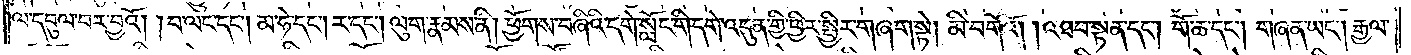ལ་དབུལ་བར་བྱའོ། །བ་ལང་དང༌། མ་ཧེ་དང༌། ར་དང༌། ལུག་རྣམས་ནི། ཕྱོགས་བཞིའི་དགེ་སློང་གི་དགེ་འདུན་གྱི་ཕྱིར་སྤྱིར་གཞག་སྟེ། མི་བགོའོ། །འཐབ་སྟན་དང༌། གོ་ཆ་དང༌། གཞན་ཡང༌། རྒྱལ་
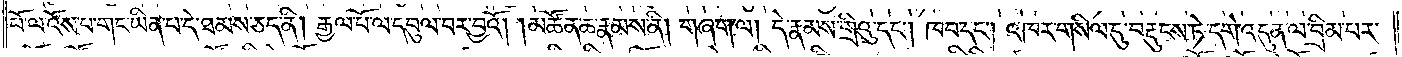པོ་ལ་འོས་པ་གང་ཡིན་པ་དེ་ཐམས་ཅད་ནི། རྒྱལ་པོ་ལ་དབུལ་བར་བྱའོ། །མཚོན་ཆ་རྣམས་ནི། གཞག་ལ། དེ་རྣམས་གྲིའུ་དང༌། ཁབ་དང༌། འཁར་གསིལ་དུ་བརྡུངས་ཏེ་དགེ་འདུན་ལ་བྲིམ་པར་
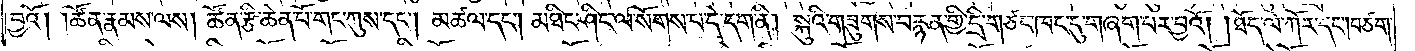བྱའོ། །ཚོན་རྣམས་ལས། ཚོན་རྩི་ཆེན་པོ་གང་ཀུས་དང༌། མཚལ་དང༌། མཐིང་ཤིང་ལ་སོགས་པ་དེ་དག་ནི། སྐུའི་གཟུགས་བརྙན་གྱི་དྲི་གཙང་ཁང་དུ་གཞག་པར་བྱའོ། །ཐོད་ལེ་ཀོར་དང༌། བཙག་
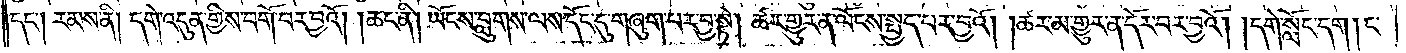དང༌། རམས་ནི། དགེ་འདུན་གྱིས་བགོ་བར་བྱའོ། །ཆང་ནི། ཡོངས་བླུགས་ལས་དོང་དུ་གཞུག་པར་བྱ་སྟེ། ཚར་གྱུར་ན་ལོངས་སྤྱད་པར་བྱའོ། །ཚར་མ་གྱུར་ན་དོར་བར་བྱའོ། །དགེ་སློང་དག །ང་
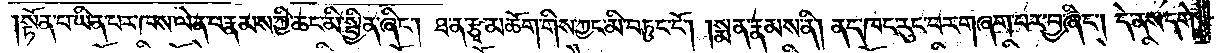།སྟོན་པ་ཡིན་པར་ཁས་ལེན་པ་རྣམས་ཀྱི་ཆང་མི་སྦྱིན་ཞིང༌། ཐ་ན་རྩྭ་མཆོག་གིས་ཀྱང་མི་བཏུང་ངོ༌། །སྨན་རྣམས་ནི། ནད་ཁང་རུང་བར་གཞག་པར་བྱ་ཞིང༌། དེ་ནས་དགེ་
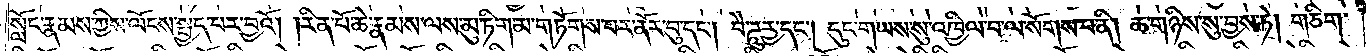སློང་རྣམས་ཀྱིས་ལོངས་སྤྱད་པར་བྱའོ། །རིན་པོ་ཆེ་རྣམས་ལས་མུ་ཏིག་མ་གཏོགས་པར་ནོར་བུ་དང༌། བཻ་ཌཱུཪྻ་དང༌། དུང་གཡས་སུ་འཁྱིལ་བ་ལ་སོགས་པ་ནི། ཆ་གཉིས་སུ་བྱས་ཏེ། གཅིག་
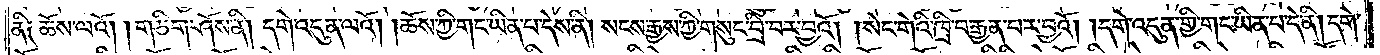ནི། ཆོས་ལའོ། །གཅིག་ཤོས་ནི། དགེ་འདུན་ལའོ། །ཆོས་ཀྱི་གང་ཡིན་པ་དེས་ནི། སངས་རྒྱས་ཀྱི་གསུང་བྲི་བར་བྱའོ། །སེང་གེའི་ཁྲི་བརྒྱན་པར་བྱའོ། །དགེ་འདུན་གྱི་གང་ཡིན་པ་དེ་ནི། དགེ་
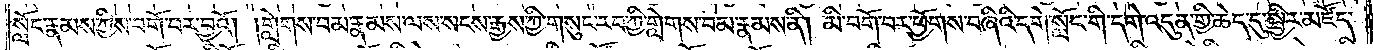སློང་རྣམས་ཀྱིས་བགོ་བར་བྱའོ། །གླེགས་བམ་རྣམས་ལས་སངས་རྒྱས་ཀྱི་གསུང་རབ་ཀྱི་གླེགས་བམ་རྣམས་ནི། མི་བགོ་བར་ཕྱོགས་བཞིའི་དགེ་སློང་གི་དགེ་འདུན་གྱི་ཆེད་དུ་སྤྱིར་མཛོད་
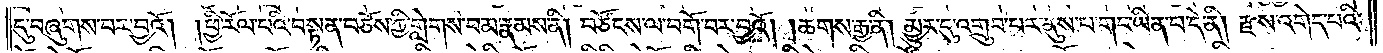དུ་བཞུགས་པར་བྱའོ། །ཕྱི་རོལ་པའི་བསྟན་བཅོས་ཀྱི་གླེགས་བམ་རྣམས་ནི། བཙོངས་ལ་བགོ་བར་བྱའོ། །ཆགས་རྒྱ་ནི། མྱུར་དུ་འགྲུབ་པར་ནུས་པ་གང་ཡིན་པ་དེ་ནི། རྫས་འགེད་པའི་
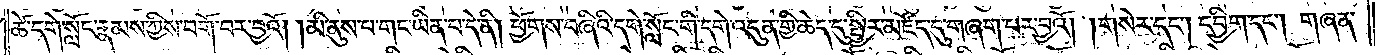ཚེ་དགེ་སློང་རྣམས་ཀྱིས་བགོ་བར་བྱའོ། །མི་ནུས་པ་གང་ཡིན་པ་དེ་ནི། ཕྱོགས་བཞིའི་དགེ་སློང་གི་དགེ་འདུན་གྱི་ཆེད་དུ་སྤྱིར་མཛོད་དུ་གཞག་པར་བྱའོ། །གསེར་དང༌། དབྱིག་དང༌། གཞན་
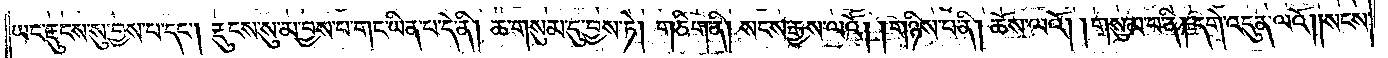ཡང་རྡུངས་སུ་བྱས་པ་དང༌། རྡུངས་སུ་མ་བྱས་པ་གང་ཡིན་པ་དེ་ནི། ཆ་གསུམ་དུ་བྱས་ཏེ། གཅིག་ནི། སངས་རྒྱས་ལའོ། །གཉིས་པ་ནི། ཆོས་ལའོ། །གསུམ་པ་ནི། དགེ་འདུན་ལའོ། །སངས་
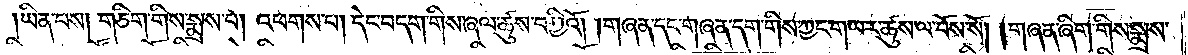ཡིན་པས། གཅིག་གིས་སྨྲས་པ། འཕགས་པ། དེང་བདག་གིས་ཞལ་ཚུས་བགྱིའོ། །གཞན་དང་གཞན་དག་གིས་ཀྱང་གཡར་ཚུས་ལ་བོས་སོ། །གཞན་ཞིག་གིས་སྨྲས་
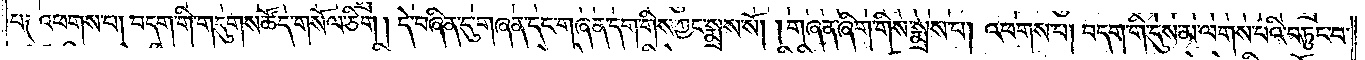པ། འཕགས་པ། བདག་གི་གདུགས་ཚོད་གསོལ་ཅིག །དེ་བཞིན་དུ་གཞན་དང་གཞན་དག་གིས་ཀྱང་སྨྲས་སོ། །གཞན་ཞིག་གིས་སྨྲས་པ། འཕགས་པ། བདག་གི་དུས་མ་ལགས་པའི་བཏུང་བ་
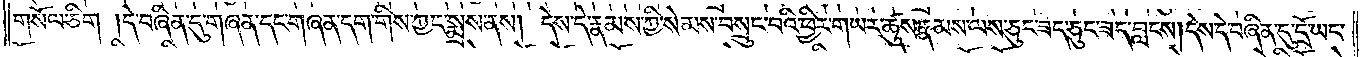གསོལ་ཅིག །དེ་བཞིན་དུ་གཞན་དང་གཞན་དག་གིས་ཀྱང་སྨྲས་ནས། དེས་དེ་རྣམས་ཀྱི་སེམས་བསྲུང་བའི་ཕྱིར་གཡར་ཚུས་རྣམས་ལས་ཅུང་ཟད་ཅུང་ཟད་བླངས། དེས་དེ་བཞིན་དུ་དྲོ་ཡང་
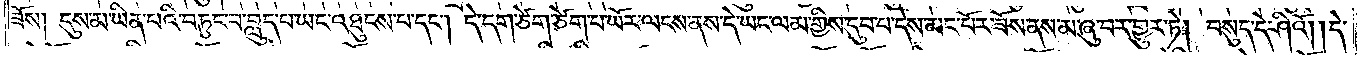ཟོས། དུས་མ་ཡིན་པའི་བཏུང་བ་བླུད་པ་ཡང་འཐུངས་པ་དང༌། དེ་དག་ཙེག་ཙེག་པ་ཡོར་ལངས་ནས་དེ་ཡང་ལམ་གྱིས་དུབ་པ་དེས་མང་པོར་ཟོས་ནས་མ་ཞུ་བར་གྱུར་ཏེ། བསུང་དེ་ཤིའོ། །དེ་
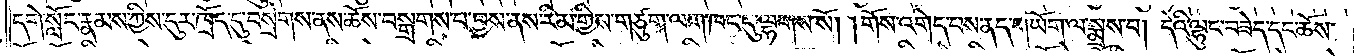དགེ་སློང་རྣམས་ཀྱིས་དུར་ཁྲོད་དུ་བསྲེགས་ནས་ཆོས་བསྒྲགས་པ་བྱས་ནས་རིམ་གྱིས་གཙུག་ལག་ཁང་དུ་ལྷགས་སོ། །གོས་འགེད་པས་ནད་གཡོག་ལ་སྨྲས་པ། དེའི་ལྷུང་བཟེད་དང་ཆོས་
